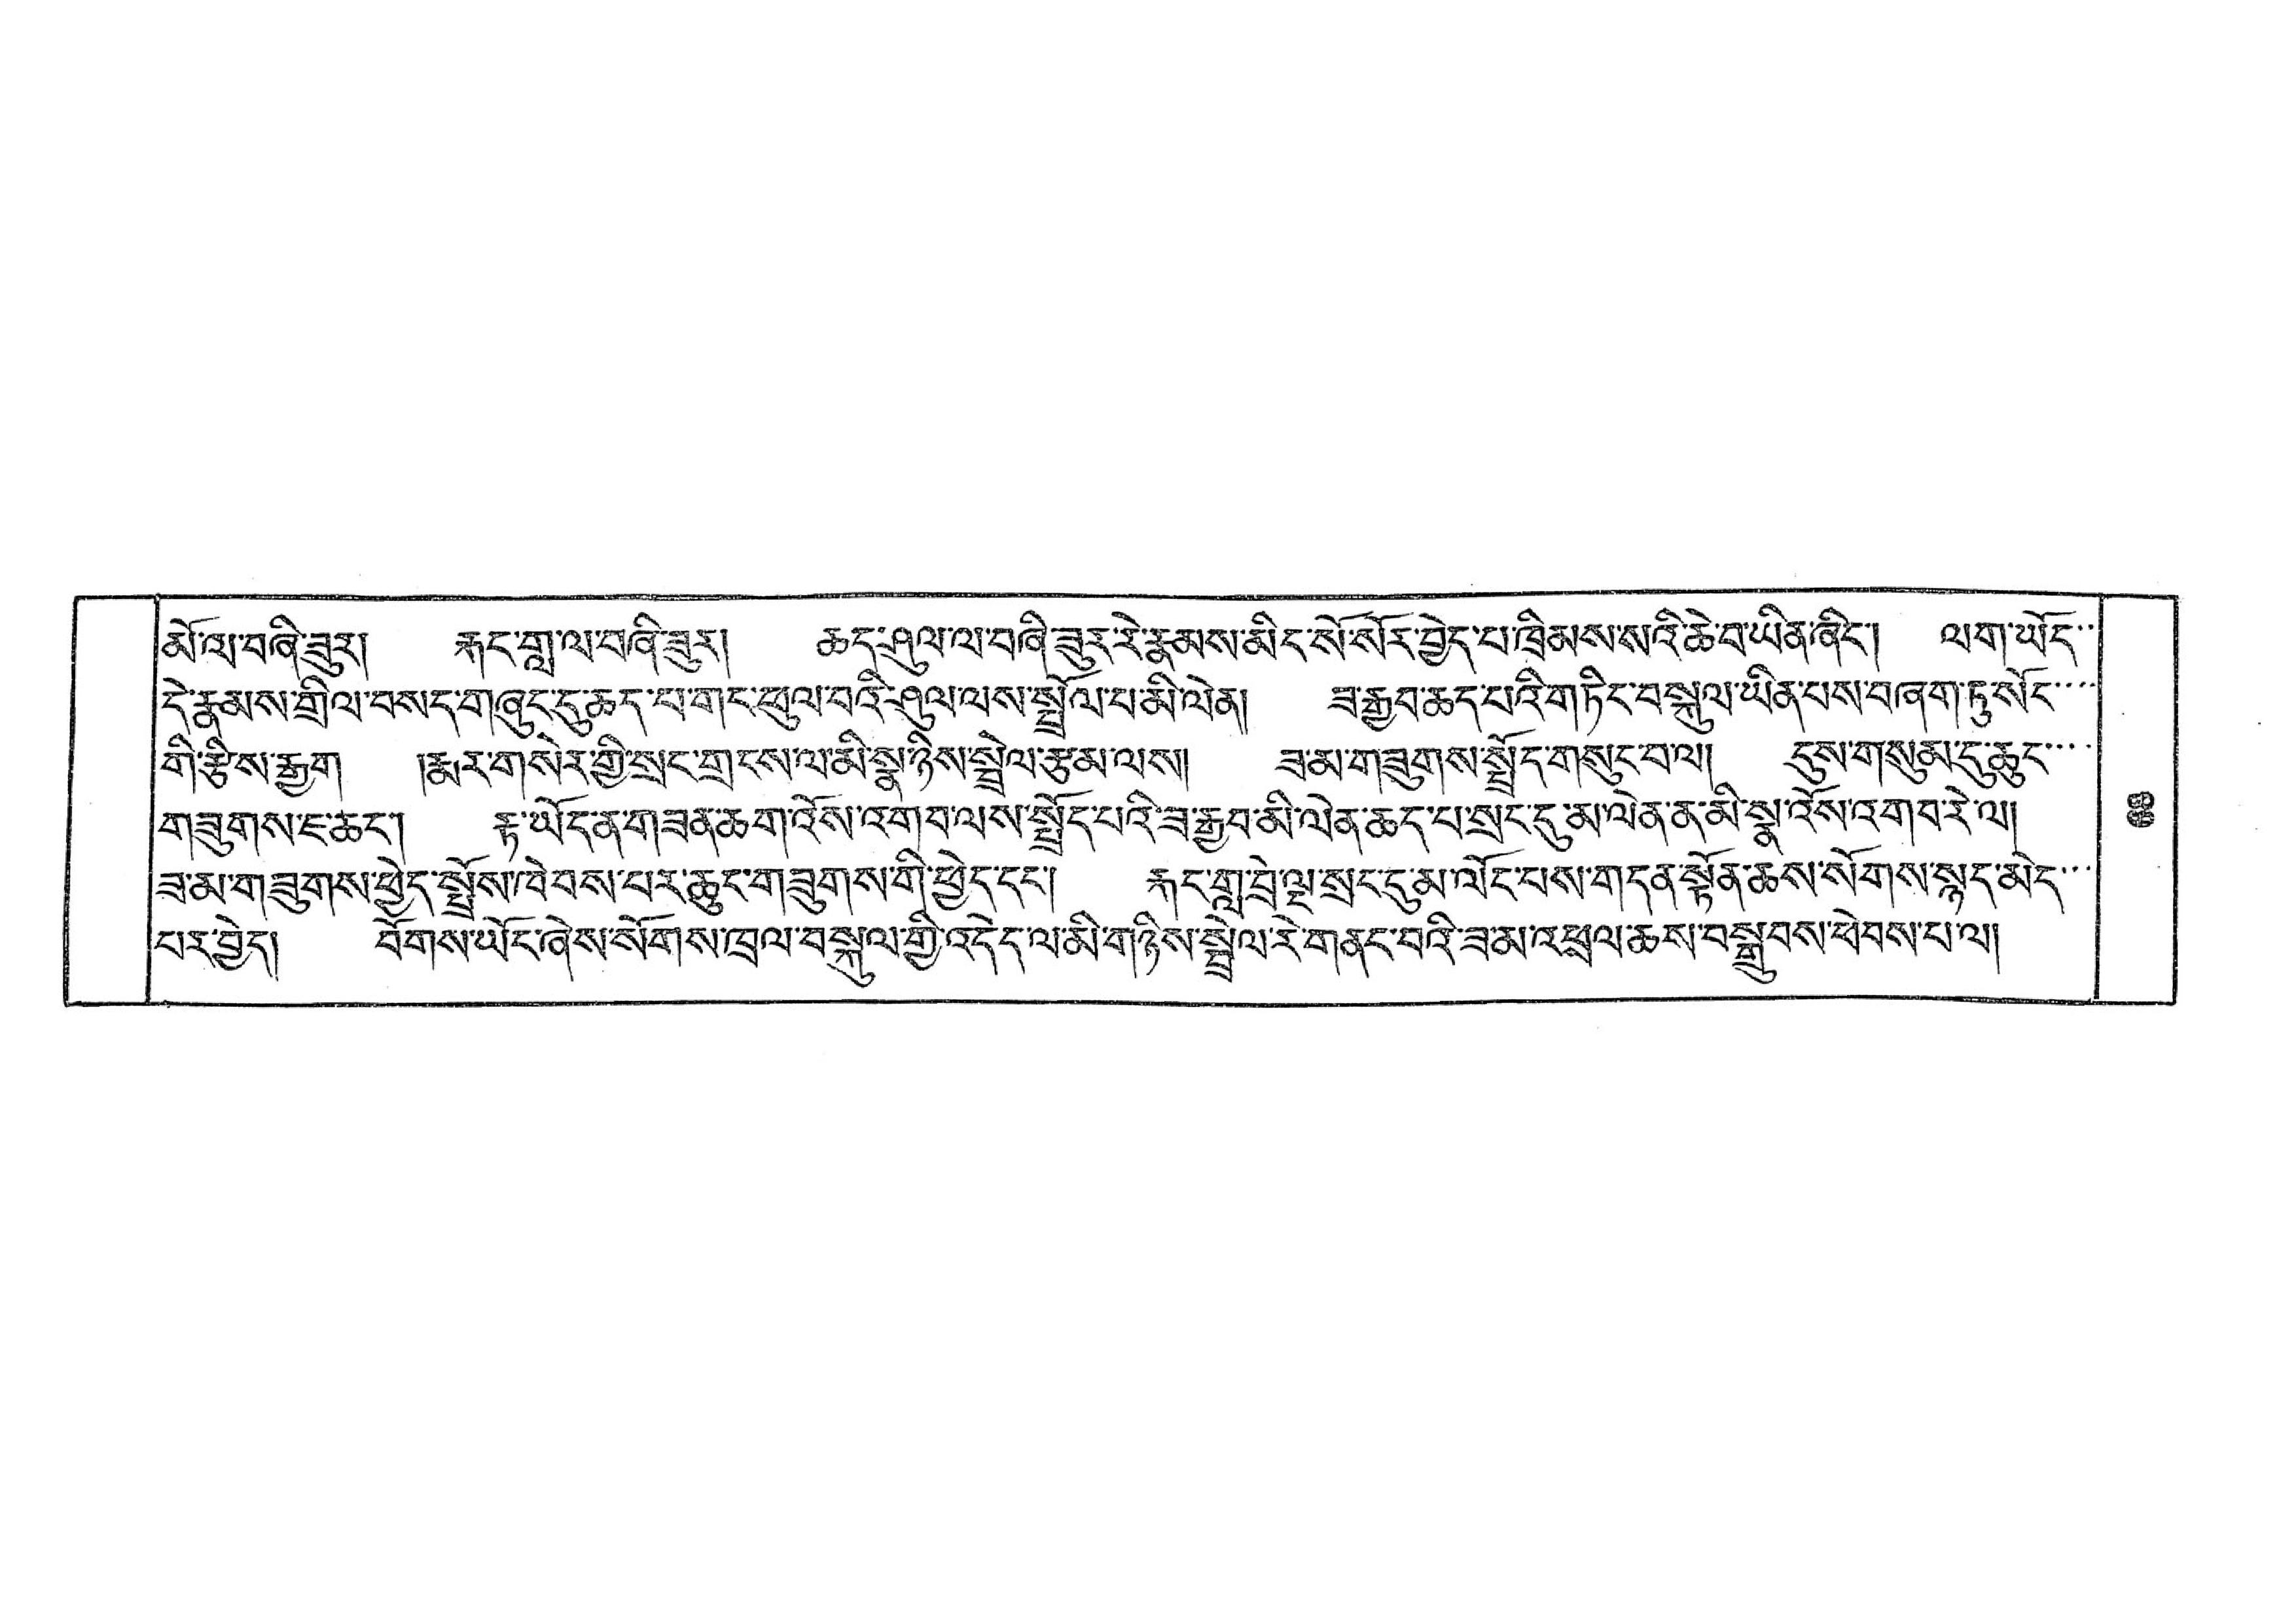མོ་ལ་བཞི་ཟུར། རྐང་གླ་ལ་བཞི་ཟུར། ཆད་ཤུལ་ལ་བཞི་ཟུར་རེ་རྣམས་མིང་སོ་སོར་བྱེད་པ་ཁྲིམས་སའི་ཆེ་བ་ཡིན་ཞིང་། ལག་ཡོད་་
དེ་རྣམས་གྲིལ་བསད་གཞུང་དུ་ཆད་པ་གང་ཕུལ་བའི་ཤུལ་ལས་སྤྲོལ་པ་མི་ལེན། ཟ་རྒྱབ་ཆད་པའི་གཏིང་བསྐུལ་ཡིན་པས་བཞག་ཏུ་སོང་་་་
གི་རྩིས་རྒྱག །རྨར་གསེར་གྱི་སྲང་གྲངས་ལ་མི་སྣ་ཉིས་སྦྲེལ་རྩམ་ལས། ཟ་མ་གཟུགས་སྤྱོད་གསུང་བ་ལ། དུས་གསུམ་དུ་ཆུང་་་་
གཟུགས་ཇ་ཚང་། རྟ་ཡོད་ན་གཟན་ཆག་འོས་འགབ་ལས་སྤྲོད་པའི་ཟ་རྒྱབ་མི་ལེན་ཆད་པ་སྲང་དུ་མ་ལེན་ན་མི་སྣ་འོས་འགབ་རེ་ལ།
ཟ་མ་གཟུགས་ཕྱེད་སྤྲོས་ཁེབས་པར་ཆུང་གཟུགས་གི་ཕྱེད་དང་། རྐང་གླ་བྲེ་ལྟ་སྲང་དུ་མ་ལོང་པས་གདན་སྟོན་ཆས་སོགས་སྙད་མེད་་་
པར་བྱེད། བོགས་ཡོང་ཞེས་སོགས་ཁྲལ་བསྐུལ་གྱི་འདེད་ལ་མི་གཉིས་སྦྲེལ་རེ་གནང་བའི་ཟ་མ་འཕྲལ་ཆས་བསྒྲུབས་ཕེབས་པ་ལ།
